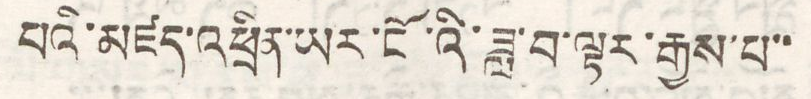པའི་མཛད་འཕྲིན་ཡར་ངོ་འི་ཟླ་བ་ལྟར་རྒྱས་པ་་
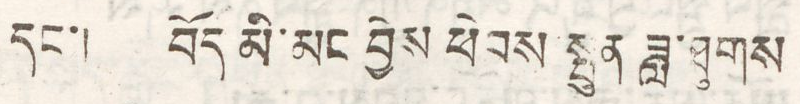དང་། བོད མི་མང བྱེས ཕེབས སྤུན ཟླ་ཐུགས
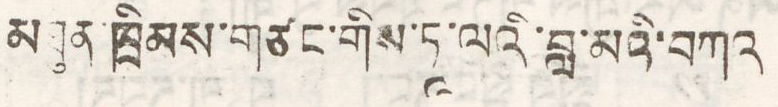མཐུན ཁྲིམས་གཙང་གིས་ཏྰ་ལའི་བླ་མའི་བཀའ
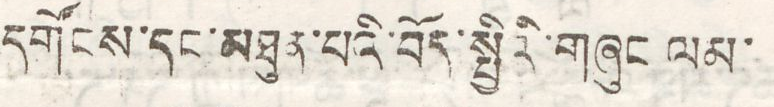དགོངས་དང་མཐུན་པའི་བོད་སྤྱིའི་གཞུང ལམ་
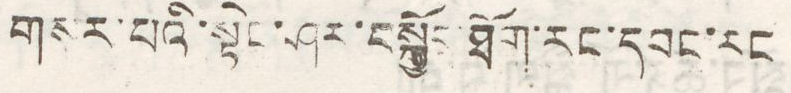གསར་པའི་སྟེང་ཤར་བསྐྱོད་ཐོག་རང་དབང་རང
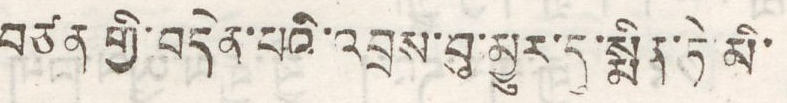བཙན གྱི་བདེན་པའི་འབྲས་བུ་མྱུར་དུ་སྨིན་ཏེ་མི་
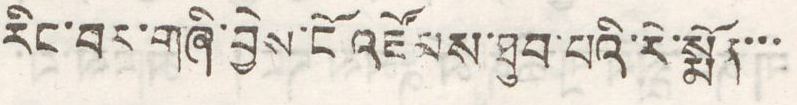རིང་བར་གཞི་བྱེས་ངོ་འཛོམས་ཐུབ་པའི་རེ་སྨོན་་་
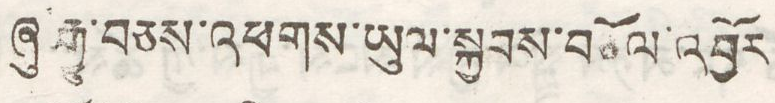ཞུ་རྒྱུ་བཅས་འཕགས་ཡུལ་སྐྱབས་བཅོལ་འབྱོར
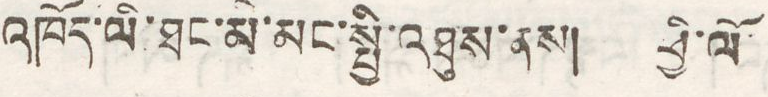འཁོད་ལི་ཐང་མི་མང་སྤྱི་འཐུས་ནས། ཕྱི་ལོ
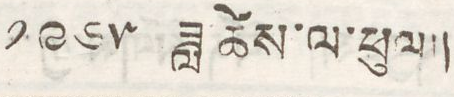༡༩༦༥ ཟླ་ཚེས་ལ་ཕུལ།།
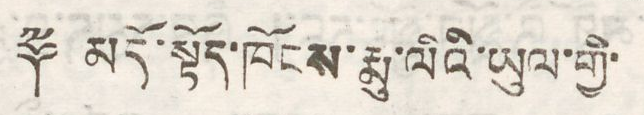༈ མདོ་སྟོད་ཁོངས་རྨུ་ལིའི་ཡུལ་གྱི་
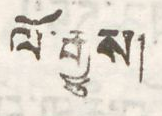ལོ་རྒྱུས།
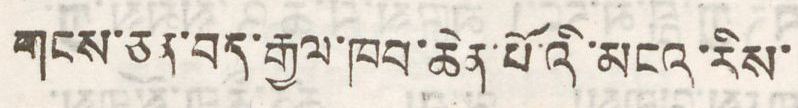གངས་ཅན་བད་རྒྱལ་ཁབ་ཆེན་པོའི་མངའ་རིས་
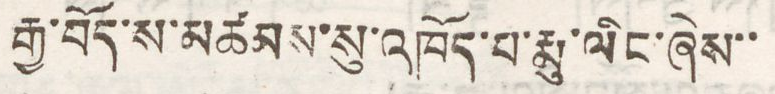རྒྱ་བོད་ས་མཚམས་སུ་འཁོད་པ་རྨུ་ལིང་ཞེས་་
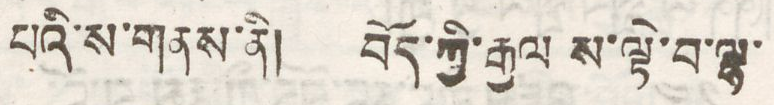པའི་ས་གནས་ནི། བོད་ཀྱི་རྒྱལ ས་ལྟེ་བ་ལྷ་
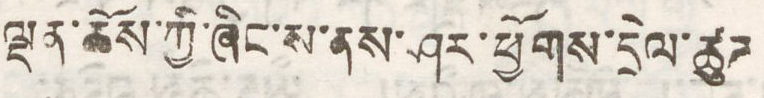ལྡན་ཆོས་ཀྱི་ཞིང་ས་ནས་ཤར་ཕྱོགས་དྲེལ་ཚུཌ
